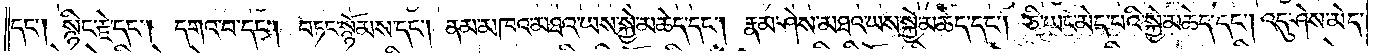དང༌། སྙིང་རྗེ་དང༌། དགའ་བ་དང༌། བཏང་སྙོམས་དང༌། ནམ་མཁའ་མཐའ་ཡས་སྐྱེ་མཆེད་དང༌། རྣམ་ཤེས་མཐའ་ཡས་སྐྱེ་མཆེད་དང༌། ཅི་ཡང་མེད་པའི་སྐྱེ་མཆེད་དང༌། འདུ་ཤེས་མེད་
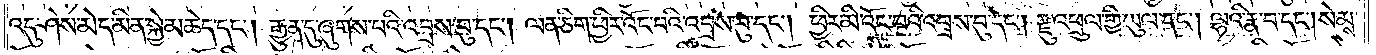འདུ་ཤེས་མེད་མིན་སྐྱེ་མཆེད་དང༌། རྒྱུན་དུ་ཞུགས་པའི་འབྲས་བུ་དང༌། ལན་ཅིག་ཕྱིར་འོང་བའི་འབྲས་བུ་དང༌། ཕྱིར་མི་འོང་བའི་འབྲས་བུ་དང༌། རྫུ་འཕྲུལ་གྱི་ཡུལ་དང༌། ལྷའི་རྣ་བ་དང༌། སེམས་
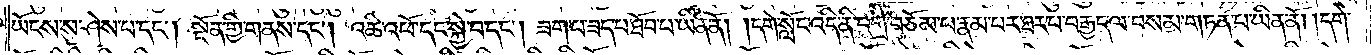ཡོངས་སུ་ཤེས་པ་དང༌། སྔོན་གྱི་གནས་དང༌། འཆི་འཕོ་དང་སྐྱེ་བ་དང༌། ཟག་པ་ཟད་པ་ཐོབ་པ་ཡིན་ནོ། །དགེ་སློང་འདི་ནི་དགྲ་བཅོམ་པ་རྣམ་པར་ཐར་པ་བརྒྱད་ལ་བསམ་གཏན་པ་ཡིན་ནོ། །དགེ་
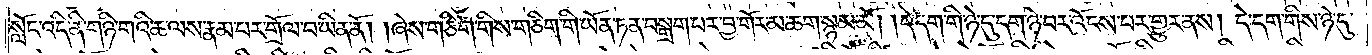སློང་འདི་ནི་གཉི་གའི་ཆ་ལས་རྣམ་པར་གྲོལ་བ་ཡིན་ནོ། །ཞེས་གཅིག་གིས་གཅིག་གི་ཡོན་ཏན་བསྒྲག་པར་བྱ་གོར་མ་ཆག་སྙམ་མོ། །དེ་དག་གི་ཉེ་དུ་དག་ཉེ་བར་འོངས་པར་གྱུར་ནས། དེ་དག་གིས་ཉེ་དུ་
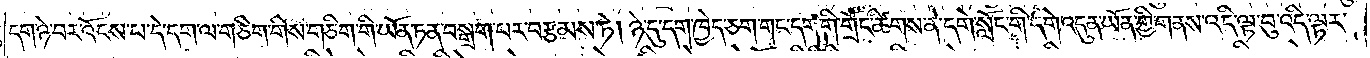དག་ཉེ་བར་འོངས་པ་དེ་དག་ལ་གཅིག་གིས་གཅིག་གི་ཡོན་ཏན་བསྒྲག་པར་བརྩམས་ཏེ། ཉེ་དུ་དག་ཁྱེད་ཅག་གང་དག་གི་གྲོང་ཚིགས་ན་དགེ་སློང་གི་དགེ་འདུན་ཡོན་གྱི་གནས་འདི་ལྟ་བུ་འདི་ལྟར་
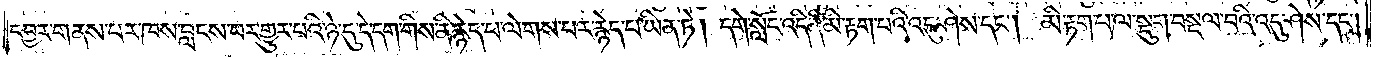དབྱར་གནས་པར་ཁས་བླངས་པར་གྱུར་པའི་ཉེ་དུ་དེ་དག་གིས་ནི་རྙེད་པ་ལེགས་པར་རྙེད་པ་ཡིན་ཏེ། དགེ་སློང་འདི་ནི་མི་རྟག་པའི་འདུ་ཤེས་དང༌། མི་རྟག་པ་ལ་སྡུག་བསྔལ་བའི་འདུ་ཤེས་དང༌།
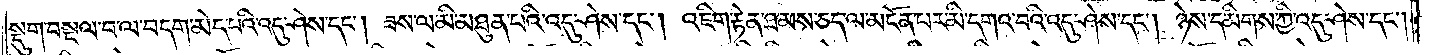སྡུག་བསྔལ་བ་ལ་བདག་མེད་པའི་འདུ་ཤེས་དང༌། ཟས་ལ་མི་མཐུན་པའི་འདུ་ཤེས་དང༌། འཇིག་རྟེན་ཐམས་ཅད་ལ་མངོན་པར་མི་དགའ་བའི་འདུ་ཤེས་དང༌། ཉེས་དམིགས་ཀྱི་འདུ་ཤེས་དང༌།
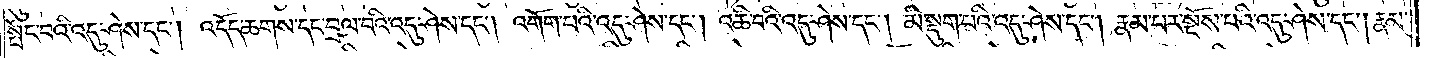སྤོང་བའི་འདུ་ཤེས་དང༌། འདོད་ཆགས་དང་བྲལ་བའི་འདུ་ཤེས་དང༌། འགོག་པའི་འདུ་ཤེས་དང༌། འཆི་བའི་འདུ་ཤེས་དང༌། མི་སྡུག་པའི་འདུ་ཤེས་དང༌། རྣམ་པར་སྔོས་པའི་འདུ་ཤེས་དང༌། རྣམ་
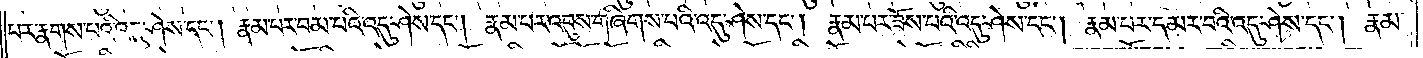པར་རྣགས་པའི་འདུ་ཤེས་དང༌། རྣམ་པར་བམ་པའི་འདུ་ཤེས་དང༌། རྣམ་པར་འབུས་གཞིགས་པའི་འདུ་ཤེས་དང༌། རྣམ་པར་ཟོས་པའི་འདུ་ཤེས་དང༌། རྣམ་པར་དམར་བའི་འདུ་ཤེས་དང༌། རྣམ་
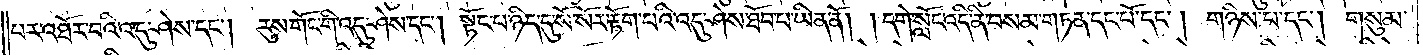པར་འཐོར་བའི་འདུ་ཤེས་དང༌། རུས་གོང་གི་འདུ་ཤེས་དང༌། སྟོང་པ་ཉིད་དུ་སོ་སོར་རྟོག་པའི་འདུ་ཤེས་ཐོབ་པ་ཡིན་ནོ། །དགེ་སློང་འདི་ནི་བསམ་གཏན་དང་པོ་དང༌། གཉིས་པ་དང༌། གསུམ་
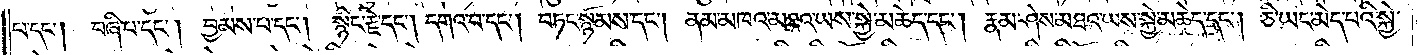པ་དང༌། བཞི་པ་དང༌། བྱམས་པ་དང༌། སྙིང་རྗེ་དང༌། དགའ་བ་དང༌། བཏང་སྙོམས་དང༌། ནམ་མཁའ་མཐའ་ཡས་སྐྱེ་མཆེད་དང༌། རྣམ་ཤེས་མཐའ་ཡས་སྐྱེ་མཆེད་དང༌། ཅི་ཡང་མེད་པའི་སྐྱེ་
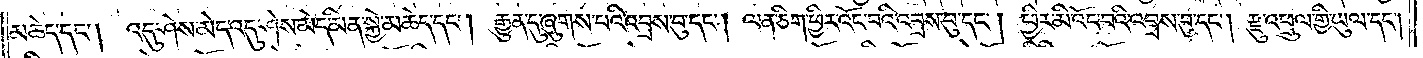མཆེད་དང༌། འདུ་ཤེས་མེད་འདུ་ཤེས་མེད་མིན་སྐྱེ་མཆེད་དང༌། རྒྱུན་དུ་ཞུགས་པའི་འབྲས་བུ་དང༌། ལན་ཅིག་ཕྱིར་འོང་བའི་འབྲས་བུ་དང༌། ཕྱིར་མི་འོང་བའི་འབྲས་བུ་དང༌། རྫུ་འཕྲུལ་གྱི་ཡུལ་དང༌།
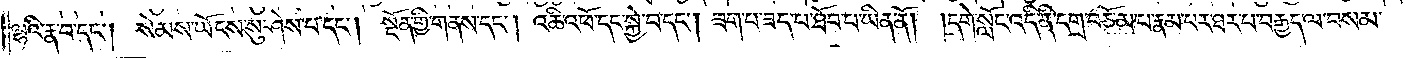ལྷའི་རྣ་བ་དང༌། སེམས་ཡོངས་སུ་ཤེས་པ་དང༌། སྔོན་གྱི་གནས་དང༌། འཆི་འཕོ་དང་སྐྱེ་བ་དང༌། ཟག་པ་ཟད་པ་ཐོབ་པ་ཡིན་ནོ། །དགེ་སློང་འདི་ནི་དགྲ་བཅོམ་པ་རྣམ་པར་ཐར་པ་བརྒྱད་ལ་བསམ་
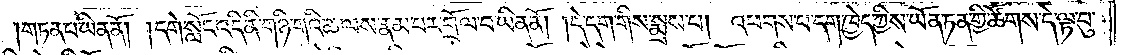།གཏན་པ་ཡིན་ནོ། །དགེ་སློང་འདི་ནི་གཉི་གའི་ཆ་ལས་རྣམ་པར་གྲོལ་བ་ཡིན་ནོ། །དེ་དག་གིས་སྨྲས་པ། འཕགས་པ་དག་ཁྱེད་ཀྱིས་ཡོན་ཏན་གྱི་ཚོགས་དེ་ལྟ་བུ་
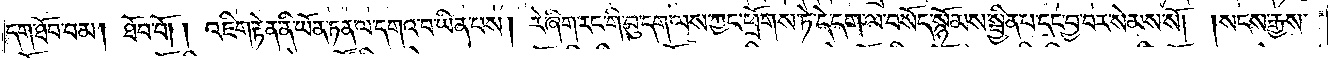དག་ཐོབ་བམ། ཐོབ་བོ། འཇིག་རྟེན་ནི་ཡོན་ཏན་ལ་དགའ་བ་ཡིན་པས། རེ་ཞིག་རང་གི་བུ་དག་ལས་ཀྱང་ཕྲོགས་ཏེ་དེ་དག་ལ་བསོད་སྙོམས་སྦྱིན་པ་དང་བྱ་བར་སེམས་སོ། །སངས་རྒྱས་
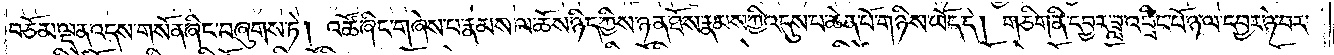བཅོམ་ལྡན་འདས་གསོན་ཞིང་བཞུགས་ཏེ། འཚོ་ཞིང་གཞེས་པ་རྣམས་ལ་ཆོས་ཉིད་ཀྱིས་ཉན་ཐོས་རྣམས་ཀྱི་འདུས་པ་ཆེན་པོ་གཉིས་ཡོད་དེ། གཅིག་ནི་དབྱར་ཟླ་འབྲིང་པོ་ཉ་ལ་དབྱར་ཉེ་བར་
